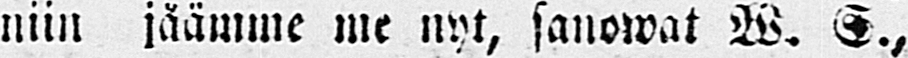niin jäämme me nyt, sanowat W. S.,
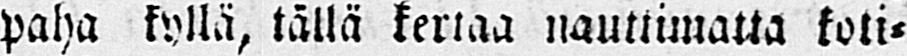paha kyllä, tällä kertaa nauttimatta koti-
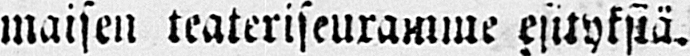maisen teateriseuramme esityksiä.
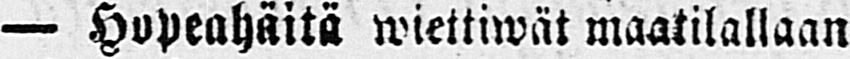— Hopeahäitä wiettiwät maatilallaan
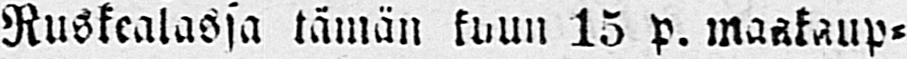Ruskealassa tämän kuun 13 p. maakaup-
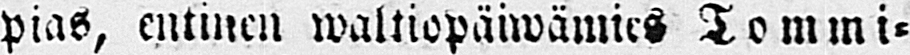pias, entinen waltiopäiwämies Tommi-
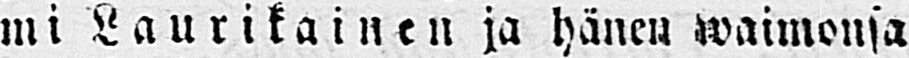mi Laurikainen ja hänen waimonsa
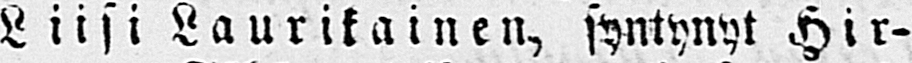Liisi Laurikainen, syntynyt Hi r-
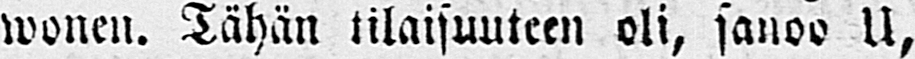wonen. Tähän tilaisuuteen oli, sanoo U,
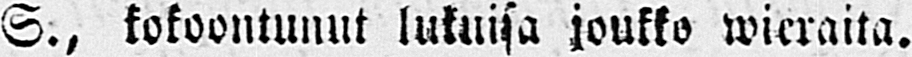S., kokoontunut lukuisa joukko wieraita.
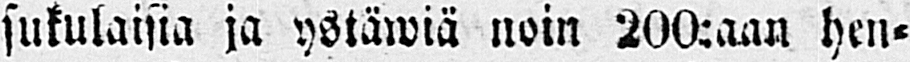sukulaisia ja ystäwiä noin 200:aan hen-
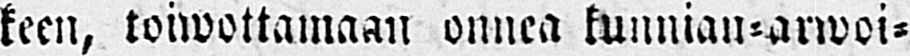keen, toiwottamaan onnea kunnian-arwoi-
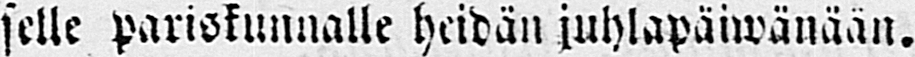selle pariskunnalle heidän juhlapäiwänään.
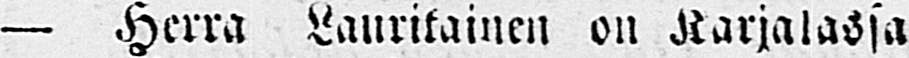— Herra Laurikainen on Karjalassa
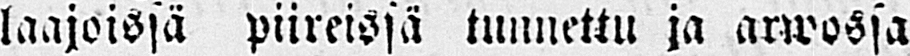laajoissa piireissä tunnettu ja arwossa
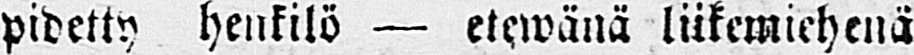pidetty henkilö — etewänä liikemiehenä
